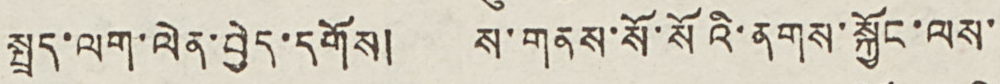སྤྲད་ལག་ལེན་བྱེད་དགོས། ས་གནས་སོ་སོའི་ནགས་སྐྱོང་ལས་
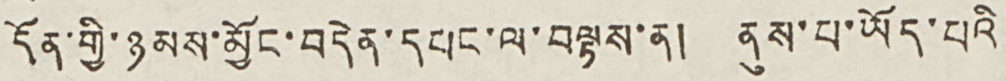དོན་གྱི་ཉམས་མྱོང་བདེན་དཔང་ལ་བལྟས་ན། ནུས་པ་ཡོད་པའི
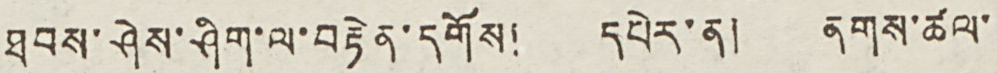ཐབས་ཤེས་ཤིག་ལ་བརྟེན་དགོས། དཔེར་ན། ནགས་ཚལ་
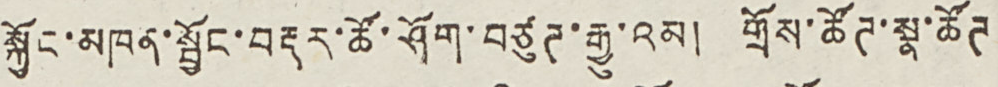སྐྱོང་མཁན་སྦྱོང་བརྡར་ཚོ་ཤོག་བཙུཊ་རྒྱུ་འམ། གྲོས་ཚོཊ་སྣ་ཚོཊ
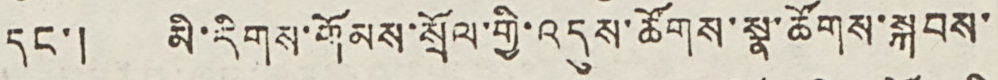དང་། མི་རིགས་གོམས་སྲོལ་གྱི་འདུས་ཚོགས་སྣ་ཚོགས་སྐབས་
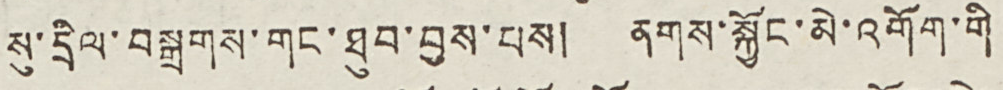སུ་དྲིལ་བསྒྲགས་གང་ཐུབ་བྱས་པས། ནགས་སྐྱོང་མེ་འགོག་གི
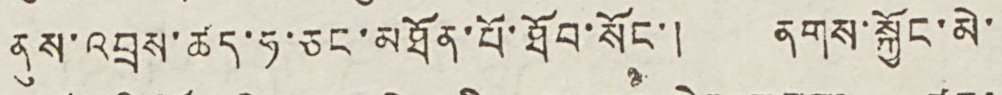ནུས་འབྲས་ཚད་ཧ་ཅང་མཐོན་པོ་ཐོབ་སོང་། ནགས་སྐྱོང་མེ་
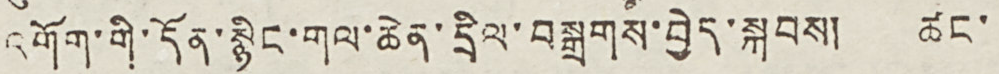འགོག་གི་དོན་སྙིང་གལ་ཆེན་དྲིལ་བསྒྲགས་བྱེད་སྐབས། ཚང་
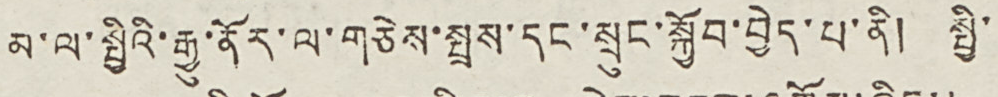མ་ལ་སྤྱིའི་རྒྱུ་ནོར་ལ་གཅེས་སྤྲས་དང་སྲུང་སྐྱོབ་བྱེད་པ་ནི། སྤྱི་
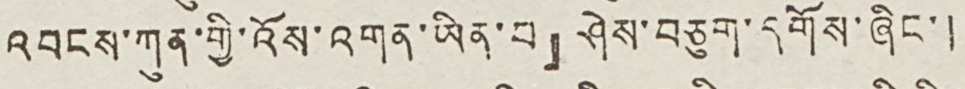འབངས་ཀུན་གྱི་འོས་འགན་ཡིན་པ』ཤེས་བཅུག་དགོས་ཞིང་།
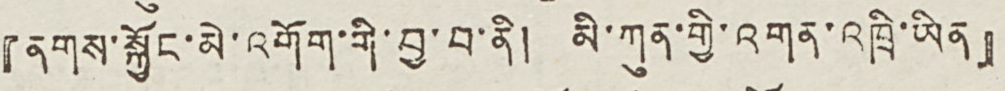『ནགས་སྐྱོང་མེ་འགོག་གི་བྱ་བ་ནི། མི་ཀུན་གྱི་འགན་འཁྲི་ཡིན』
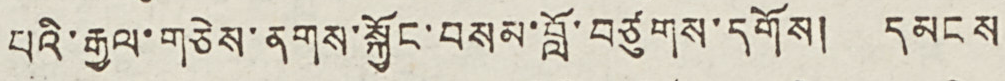པའི་རྒྱལ་གཅེས་ནགས་སྐྱོང་བསམ་བློ་བཙུགས་དགོས། དམངས
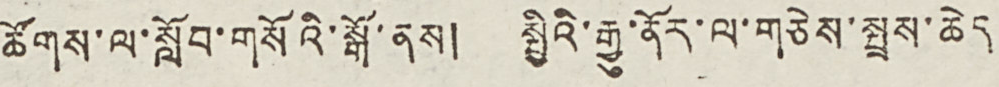ཚོགས་ལ་སློབ་གསོའི་སྒོ་ནས། སྤྱིའི་རྒྱུ་ནོར་ལ་གཅེས་སྤྲས་ཆེད
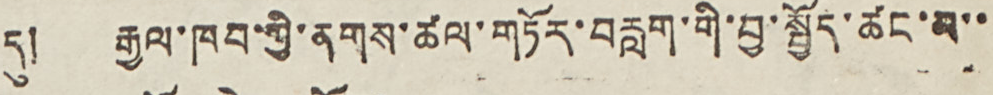དུ། རྒྱལ་ཁབ་ཀྱི་ནགས་ཚལ་གཏོར་བརླག་གི་བྱ་སྤྱོད་ཚང་མ་་
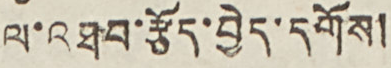ལ་འཐབ་རྩོད་བྱེད་དགོས།
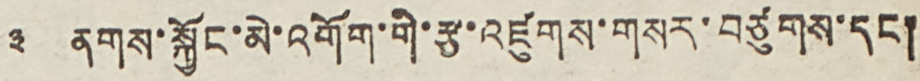༣ ནགས་སྐྱོང་མེ་འགོག་གི་རྩ་འཛུགས་གསར་བཙུགས་དང །
